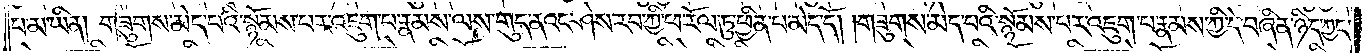པ་མ་ཡིན། གཟུགས་མེད་པའི་སྙོམས་པར་འཇུག་པ་རྣམས་ལས་གུད་ནའང་ཤེས་རབ་ཀྱི་ཕ་རོལ་ཏུ་ཕྱིན་པ་མེད་དོ། །གཟུགས་མེད་པའི་སྙོམས་པར་འཇུག་པ་རྣམས་ཀྱི་དེ་བཞིན་ཉིད་ཀྱང་
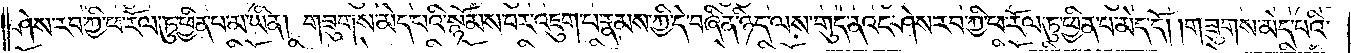ཤེས་རབ་ཀྱི་ཕ་རོལ་ཏུ་ཕྱིན་པ་མ་ཡིན། གཟུགས་མེད་པའི་སྙོམས་པར་འཇུག་པ་རྣམས་ཀྱི་དེ་བཞིན་ཉིད་ལས་གུད་ནའང་ཤེས་རབ་ཀྱི་ཕ་རོལ་ཏུ་ཕྱིན་པ་མེད་དོ། །གཟུགས་མེད་པའི་
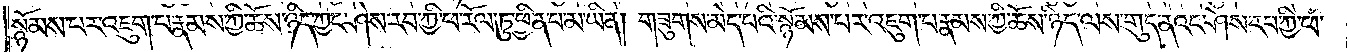སྙོམས་པར་འཇུག་པ་རྣམས་ཀྱི་ཆོས་ཉིད་ཀྱང་ཤེས་རབ་ཀྱི་ཕ་རོལ་ཏུ་ཕྱིན་པ་མ་ཡིན། གཟུགས་མེད་པའི་སྙོམས་པར་འཇུག་པ་རྣམས་ཀྱི་ཆོས་ཉིད་ལས་གུད་ནའང་ཤེས་རབ་ཀྱི་ཕ་
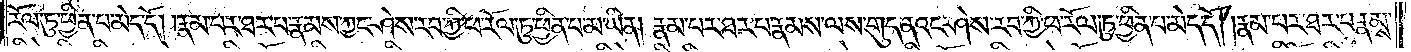རོལ་ཏུ་ཕྱིན་པ་མེད་དོ། །རྣམ་པར་ཐར་པ་རྣམས་ཀྱང་ཤེས་རབ་ཀྱི་ཕ་རོལ་ཏུ་ཕྱིན་པ་མ་ཡིན། རྣམ་པར་ཐར་པ་རྣམས་ལས་གུད་ནའང་ཤེས་རབ་ཀྱི་ཕ་རོལ་ཏུ་ཕྱིན་པ་མེད་དོ། རྣམ་པར་ཐར་པ་རྣམས་
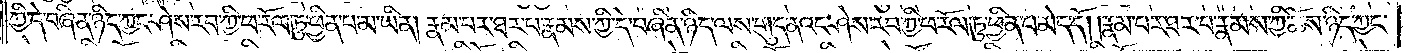ཀྱི་དེ་བཞིན་ཉིད་ཀྱང་ཤེས་རབ་ཀྱི་ཕ་རོལ་ཏུ་ཕྱིན་པ་མ་ཡིན། རྣམ་པར་ཐར་པ་རྣམས་ཀྱི་དེ་བཞིན་ཉིད་ལས་གུད་ནའང་ཤེས་རབ་ཀྱི་ཕ་རོལ་ཏུ་ཕྱིན་པ་མེད་དོ། །རྣམ་པར་ཐར་པ་རྣམས་ཀྱི་ཆོས་ཉིད་ཀྱང་
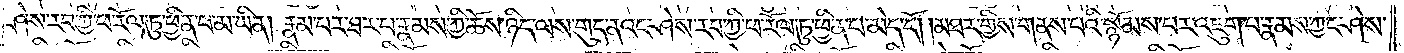ཤེས་རབ་ཀྱི་ཕ་རོལ་ཏུ་ཕྱིན་པ་མ་ཡིན། རྣམ་པར་ཐར་པ་རྣམས་ཀྱི་ཆོས་ཉིད་ལས་གུད་ནའང་ཤེས་རབ་ཀྱི་ཕ་རོལ་ཏུ་ཕྱིན་པ་མེད་དོ། །མཐར་གྱིས་གནས་པའི་སྙོམས་པར་འཇུག་པ་རྣམས་ཀྱང་ཤེས་
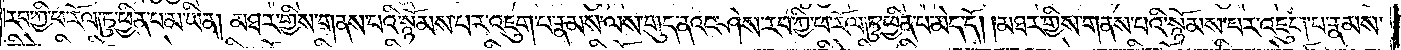རབ་ཀྱི་ཕ་རོལ་ཏུ་ཕྱིན་པ་མ་ཡིན། མཐར་གྱིས་གནས་པའི་སྙོམས་པར་འཇུག་པ་རྣམས་ལས་གུད་ནའང་ཤེས་རབ་ཀྱི་ཕ་རོལ་ཏུ་ཕྱིན་པ་མེད་དོ། །མཐར་གྱིས་གནས་པའི་སྙོམས་པར་འཇུག་པ་རྣམས་
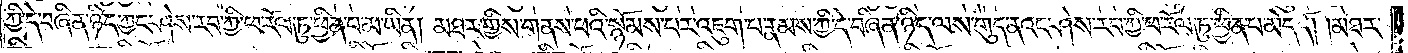ཀྱི་དེ་བཞིན་ཉིད་ཀྱང་ཤེས་རབ་ཀྱི་ཕ་རོལ་ཏུ་ཕྱིན་པ་མ་ཡིན། མཐར་གྱིས་གནས་པའི་སྙོམས་པར་འཇུག་པ་རྣམས་ཀྱི་དེ་བཞིན་ཉིད་ལས་གུད་ནའང་ཤེས་རབ་ཀྱི་ཕ་རོལ་ཏུ་ཕྱིན་པ་མེད་དོ། །མཐར་
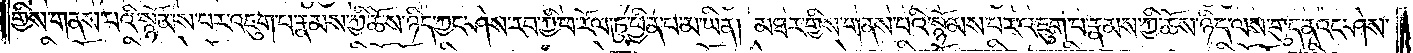གྱིས་གནས་པའི་སྙོམས་པར་འཇུག་པ་རྣམས་ཀྱི་ཆོས་ཉིད་ཀྱང་ཤེས་རབ་ཀྱི་ཕ་རོལ་ཏུ་ཕྱིན་པ་མ་ཡིན། མཐར་གྱིས་གནས་པའི་སྙོམས་པར་འཇུག་པ་རྣམས་ཀྱི་ཆོས་ཉིད་ལས་གུད་ནའང་ཤེས་
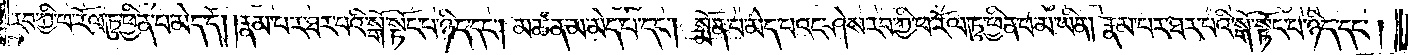རབ་ཀྱི་ཕ་རོལ་ཏུ་ཕྱིན་པ་མེད་དོ། །རྣམ་པར་ཐར་པའི་སྒོ་སྟོང་པ་ཉིད་དང༌། མཚན་མ་མེད་པ་དང༌། སྨོན་པ་མེད་པའང་ཤེས་རབ་ཀྱི་ཕ་རོལ་ཏུ་ཕྱིན་པ་མ་ཡིན། རྣམ་པར་ཐར་པའི་སྒོ་སྟོང་པ་ཉིད་དང༌།
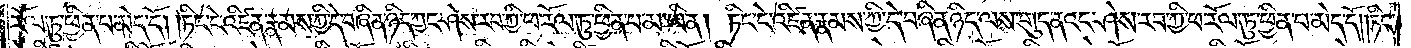རོལ་ཏུ་ཕྱིན་པ་མེད་དོ། །ཏིང་ངེ་འཛིན་རྣམས་ཀྱི་དེ་བཞིན་ཉིད་ཀྱང་ཤེས་རབ་ཀྱི་ཕ་རོལ་ཏུ་ཕྱིན་པ་མ་ཡིན། ཏིང་ངེ་འཛིན་རྣམས་ཀྱི་དེ་བཞིན་ཉིད་ལས་གུད་ནའང་ཤེས་རབ་ཀྱི་ཕ་རོལ་ཏུ་ཕྱིན་པ་མེད་དོ། །ཏིང་
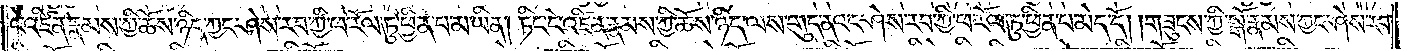ངེ་འཛིན་རྣམས་ཀྱི་ཆོས་ཉིད་ཀྱང་ཤེས་རབ་ཀྱི་ཕ་རོལ་ཏུ་ཕྱིན་པ་མ་ཡིན། ཏིང་ངེ་འཛིན་རྣམས་ཀྱི་ཆོས་ཉིད་ལས་གུད་ནའང་ཤེས་རབ་ཀྱི་ཕ་རོལ་ཏུ་ཕྱིན་པ་མེད་དོ། །གཟུངས་ཀྱི་སྒོ་རྣམས་ཀྱང་ཤེས་རབ་
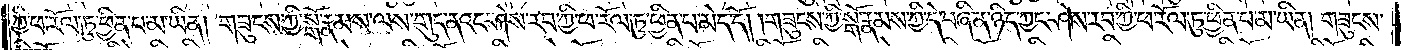ཀྱི་ཕ་རོལ་ཏུ་ཕྱིན་པ་མ་ཡིན། གཟུངས་ཀྱི་སྒོ་རྣམས་ལས་གུད་ནའང་ཤེས་རབ་ཀྱི་ཕ་རོལ་ཏུ་ཕྱིན་པ་མེད་དོ། །གཟུངས་ཀྱི་སྒོ་རྣམས་ཀྱི་དེ་བཞིན་ཉིད་ཀྱང་ཤེས་རབ་ཀྱི་ཕ་རོལ་ཏུ་ཕྱིན་པ་མ་ཡིན། གཟུངས་
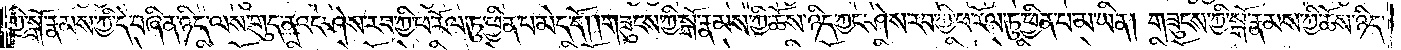ཀྱི་སྒོ་རྣམས་ཀྱི་དེ་བཞིན་ཉིད་ལས་གུད་ནའང་ཤེས་རབ་ཀྱི་ཕ་རོལ་ཏུ་ཕྱིན་པ་མེད་དོ། །གཟུངས་ཀྱི་སྒོ་རྣམས་ཀྱི་ཆོས་ཉིད་ཀྱང་ཤེས་རབ་ཀྱི་ཕ་རོལ་ཏུ་ཕྱིན་པ་མ་ཡིན། གཟུངས་ཀྱི་སྒོ་རྣམས་ཀྱི་ཆོས་ཉིད་
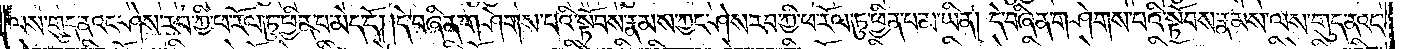ལས་གུད་ནའང་ཤེས་རབ་ཀྱི་ཕ་རོལ་ཏུ་ཕྱིན་པ་མེད་དོ། །དེ་བཞིན་གཤེགས་པའི་སྟོབས་རྣམས་ཀྱང་ཤེས་རབ་ཀྱི་ཕ་རོལ་ཏུ་ཕྱིན་པ་མ་ཡིན། དེ་བཞིན་གཤེགས་པའི་སྟོབས་རྣམས་ལས་གུད་ནའང་
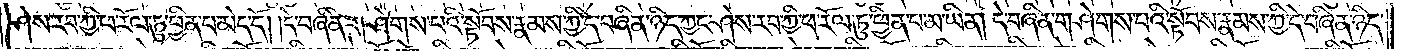ཤེས་རབ་ཀྱི་ཕ་རོལ་ཏུ་ཕྱིན་པ་མེད་དོ། །དེ་བཞིན་གཤེགས་པའི་སྟོབས་རྣམས་ཀྱི་དེ་བཞིན་ཉིད་ཀྱང་ཤེས་རབ་ཀྱི་ཕ་རོལ་ཏུ་ཕྱིན་པ་མ་ཡིན། དེ་བཞིན་གཤེགས་པའི་སྟོབས་རྣམས་ཀྱི་དེ་བཞིན་ཉིད་
